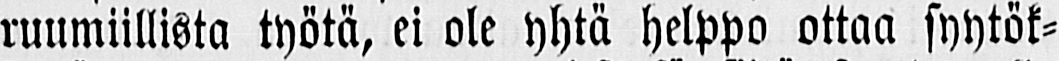ruumiillista työtä, ei ole yhtä helppo ottaa syytök-
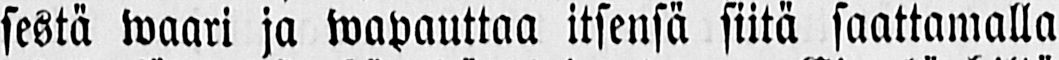sestä waari ja wapauttaa itsensä siitä saattamalla
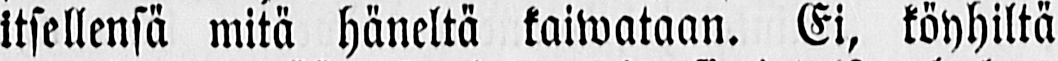itsellensä mitä häneltä kaiwataan. Ei, köyhiltä
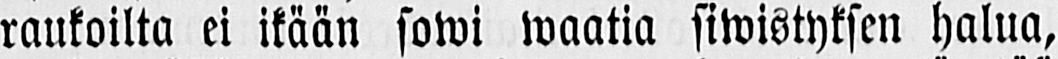raukoilta ei ikään sowi waatia siwistyksen halua,
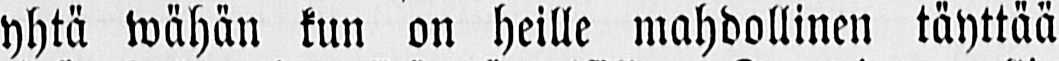yhtä wähän kun on heille mahdollinen täyttää
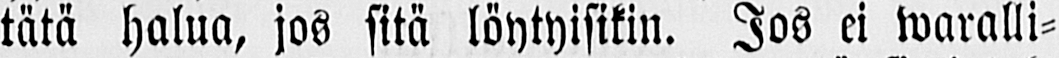tätä halua, jos sitä löytyisikin. Jos ei waralli-
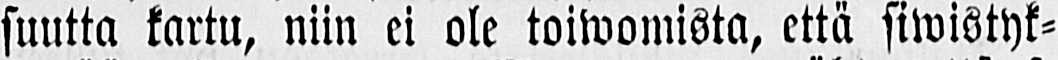suutta kartu, niin ei ole toiwomista, että siwistyk-
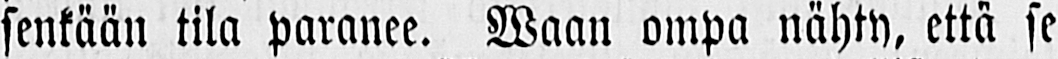senkään tila paranee. Waan ompa nähty, että se
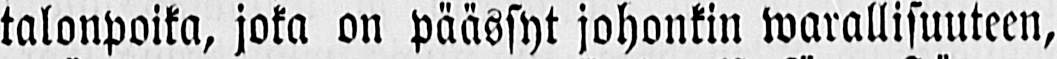talonpoika, joka on päässyt johonkin warallisuuteen,
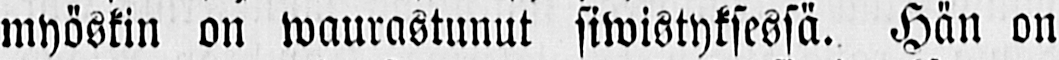myöskin on waurastunut siwistyksessä. Hän on
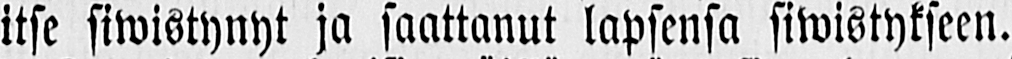itse siwistynyt ja saattanut lapsensa siwistykseen.
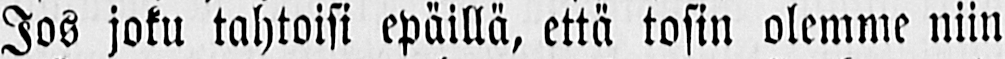Jos joku tahtoisi epäillä, että tosin olemme niin
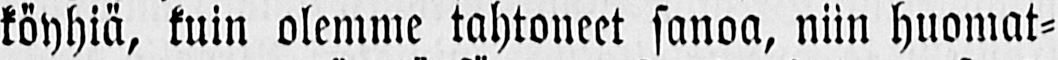köyhiä, kuin olemme tahtoneet sanoa, niin huomat-
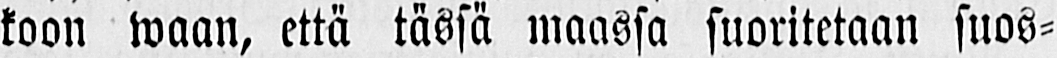koon waan, että tässä maassa suoritetaan suos-
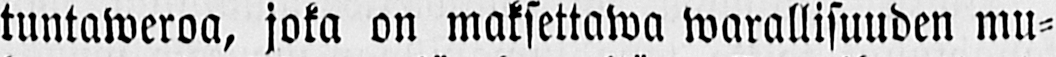tuntaweroa, joka on maksettawa warallisuuden mu-
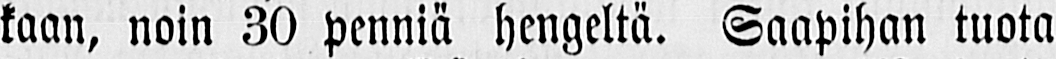kaan, noin 30 penniä hengeltä. Saapihan tuota
